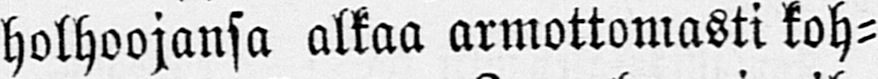holhoojansa alkaa armottomasti koh-
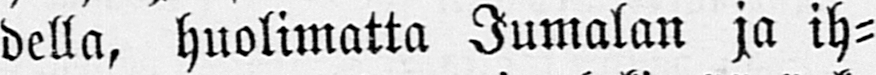della, huolimatta Jumalan ja ih-
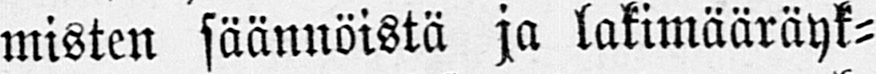misten säännöistä ja lakimääräyk-
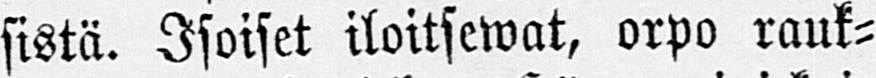sistä. Isoiset iloitsewat, orpo rauk-
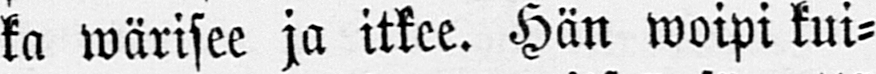ka wärisee ja itkee. Hän woipi kui-
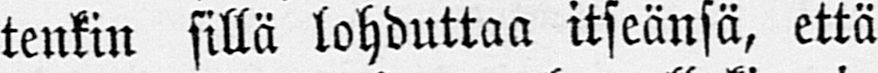tenkin sillä lohduttaa itseänsä, että
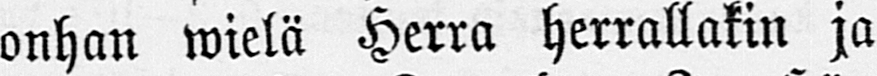onhan wielä Herra herrallakin ja
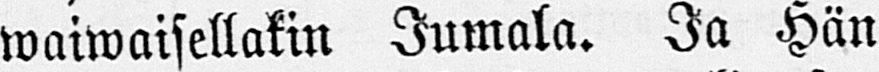waiwaisellakin Jumala. Ja Hän
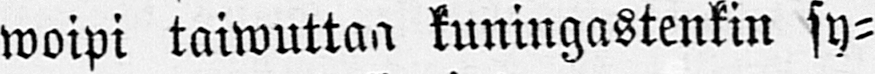woipi taiwuttaa kuningastenkin sy-
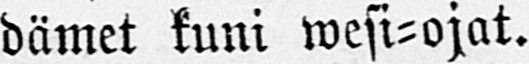dämet kuni wesi-ojat.
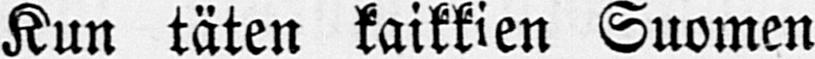Kun täten kaikkien Suomen
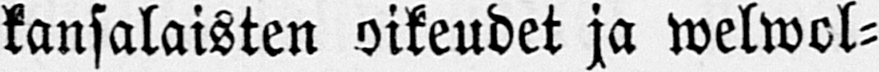kansalaisten oikeudet ja welwol-
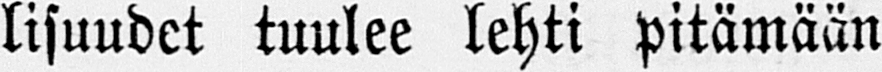lisuudet tuulee lehti pitämään
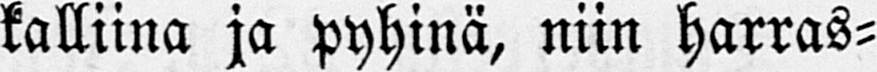kalliina ja pyhinä, niin harras-
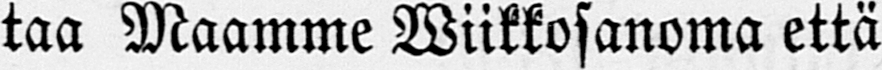taa Maamme Wiikkosanoma että
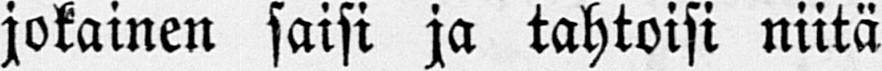jokainen saisi ja tahtoisi niitä
